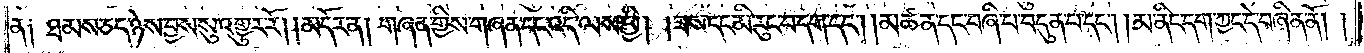ན༑ ཐམས་ཅད་ཉེས་བྱས་སུ་འགྱུར་རོ། །མདོར་ན། གཞན་གྱིས་གཞན་དང་འདི་ལས་ཕྱི། །ཟས་དང་མི་རུང་བ་དག་དང༌། །མཚན་དང་བཞི་པ་བདུན་པ་དང༌། །མ་ནིང་དག་ཀྱང་དེ་བཞིན་ནོ། །
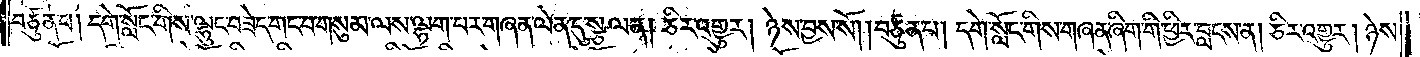བཙུན་པ། དགེ་སློང་གིས་ལྷུང་བཟེད་གང་བ་གསུམ་ལས་ལྷག་པར་གཞན་ལེན་དུ་སྩལ་ན། ཅིར་འགྱུར། ཉེས་བྱས་སོ། །བཙུན་པ། དགེ་སློང་གིས་གཞན་ཞིག་གི་ཕྱིར་བླངས་ན། ཅིར་འགྱུར། ཉེས་
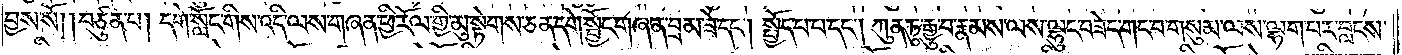བྱས་སོ། །བཙུན་པ། དགེ་སློང་གིས་འདི་ལས་གཞན་གྱི་ཕྱི་རོལ་གྱི་མུ་སྟེགས་ཅན་དགེ་སྦྱོང་གཞན་བྲམ་ཟེ་དང༌། སྤྱོད་པ་པ་དང༌། ཀུན་ཏུ་རྒྱུ་བ་རྣམས་ལས་ལྷུང་བཟེད་གང་བ་གསུམ་ལས་ལྷག་པར་བླངས་
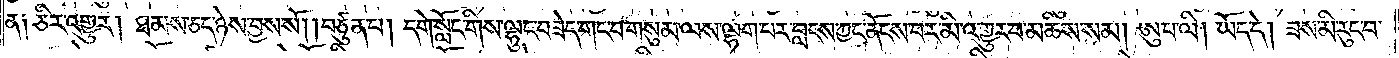ན༑ ཅིར་འགྱུར། ཐམས་ཅད་ཉེས་བྱས་སོ། །བཙུན་པ། དགེ་སློང་གིས་ལྷུང་བཟེད་གང་བ་གསུམ་ལས་ལྷག་པར་བླངས་ཀྱང་ནོངས་པར་མི་འགྱུར་བ་མཆིས་སམ། ཨུ་པ་ལི། ཡོད་དེ། ཟས་མི་རུང་བ་
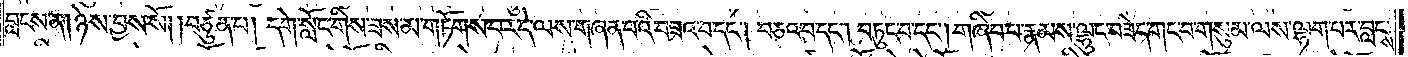བླངས་ན། ཉེས་བྱས་སོ། །བཙུན་པ། དགེ་སློང་གིས་ཟས་མ་གཏོགས་པར་དེ་ལས་གཞན་པའི་བཟའ་བ་དང༌། བཅའ་བ་དང༌། བཏུང་བ་དང༌། གཞིབ་པ་རྣམས་ལྷུང་བཟེད་གང་བ་གསུམ་ལས་ལྷག་པར་བླངས་
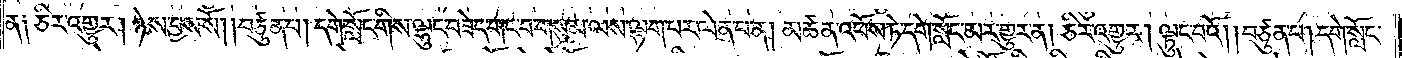ན༑ ཅིར་འགྱུར། ཉེས་བྱས་སོ། །བཙུན་པ། དགེ་སློང་གིས་ལྷུང་བཟེད་གང་བ་གསུམ་ལས་ལྷག་པར་ལེན་པ་ན། མཚན་འཕོས་ཏེ་དགེ་སློང་མར་གྱུར་ན། ཅིར་འགྱུར། ལྟུང་བའོ། །བཙུན་པ། དགེ་སློང་
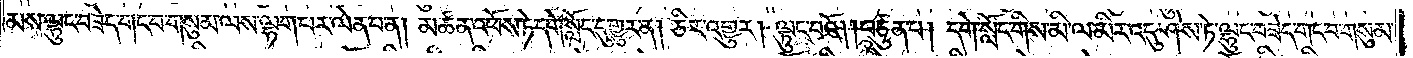མས་ལྷུང་བཟེད་གང་བ་གསུམ་ལས་ལྷག་པར་ལེན་པ་ན། མཚན་འཕོས་ཏེ་དགེ་སློང་དུ་གྱུར་ན། ཅིར་འགྱུར། ལྟུང་བའོ། །བཙུན་པ། དགེ་སློང་གིས་མི་ལ་མིར་འདུ་ཤེས་ཏེ་ལྷུང་བཟེད་གང་བ་གསུམ་
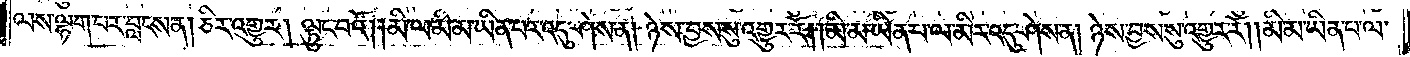ལས་ལྷག་པར་བླངས་ན། ཅིར་འགྱུར། ལྟུང་བའོ། །མི་ལ་མི་མ་ཡིན་པར་འདུ་ཤེས་ན། ཉེས་བྱས་སུ་འགྱུར་རོ། །མི་མ་ཡིན་པ་ལ་མིར་འདུ་ཤེས་ན། ཉེས་བྱས་སུ་འགྱུར་རོ། །མི་མ་ཡིན་པ་ལ་
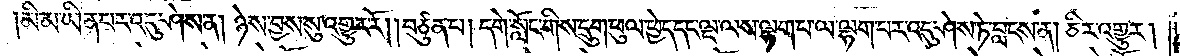མི་མ་ཡིན་པར་འདུ་ཤེས་ན། ཉེས་བྱས་སུ་འགྱུར་རོ། །བཙུན་པ། དགེ་སློང་གིས་དྲུག་ཕུལ་ཕྱེད་དང་ལྔ་ལས་ལྷག་པར་ལ་ལྷག་པར་འདུ་ཤེས་ཏེ་བླངས་ན། ཅིར་འགྱུར།
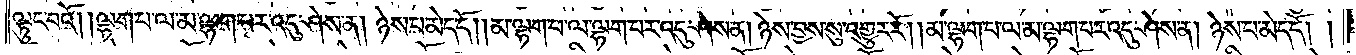ལྟུང་བའོ། །ལྷག་པ་ལ་མ་ལྷག་པར་འདུ་ཤེས་ན། ཉེས་པ་མེད་དོ། །མ་ལྷག་པ་ལ་ལྷག་པར་འདུ་ཤེས་ན། ཉེས་བྱས་སུ་འགྱུར་རོ། །མ་ལྷག་པ་ལ་མ་ལྷག་པར་འདུ་ཤེས་ན། ཉེས་པ་མེད་དོ། །
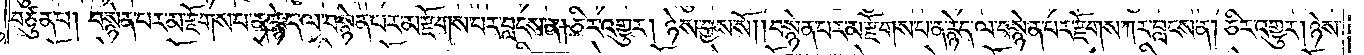བཙུན་པ། བསྙེན་པར་མ་རྫོགས་པ་ན་རྙེད་ལ་བསྙེན་པར་མ་རྫོགས་པར་བླངས་ན། ཅིར་འགྱུར། ཉེས་བྱས་སོ། །བསྙེན་པར་མ་རྫོགས་པ་ན་རྙེད་ལ་བསྙེན་པར་རྫོགས་ཀར་བླངས་ན། ཅིར་འགྱུར། ཉེས་
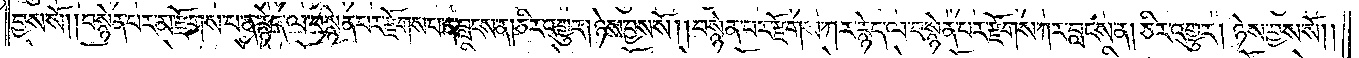བྱས་སོ། །བསྙེན་པར་མ་རྫོགས་པ་ན་རྙེད་ལ་བསྙེན་པར་རྫོགས་པ་ན་བླངས་ན། ཅིར་འགྱུར། ཉེས་བྱས་སོ། །བསྙེན་པར་རྫོགས་ཀར་རྙེད་ལ་བསྙེན་པར་རྫོགས་ཀར་བླངས་ན། ཅིར་འགྱུར། ཉེས་བྱས་སོ། །
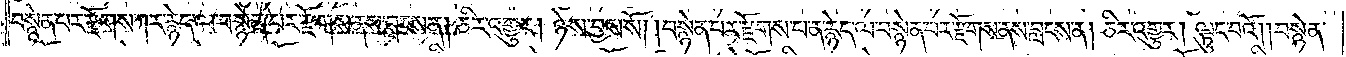བསྙེན་པར་རྫོགས་ཀར་རྙེད་ལ་བསྙེན་པར་རྫོགས་ནས་བླངས་ན། ཅིར་འགྱུར། ཉེས་བྱས་སོ། །བསྙེན་པར་རྫོགས་པ་ན་རྙེད་ལ་བསྙེན་པར་རྫོགས་ནས་བླངས་ན། ཅིར་འགྱུར། ལྟུང་བའོ། །བསྙེན་
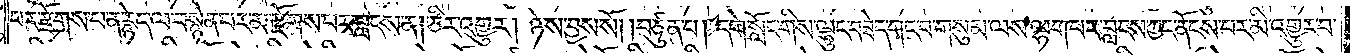པར་རྫོགས་པ་ན་རྙེད་ལ་བསྙེན་པར་མ་རྫོགས་པར་བླངས་ན། ཅིར་འགྱུར། ཉེས་བྱས་སོ། །བཙུན་པ། དགེ་སློང་གིས་ལྷུང་བཟེད་གང་བ་གསུམ་ལས་ལྷག་པར་བླངས་ཀྱང་ནོངས་པར་མི་འགྱུར་བ་
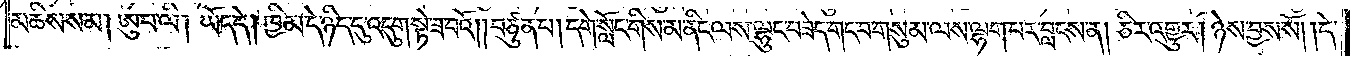མཆིས་སམ། ཨུ་པ་ལི། ཡོད་དེ། ཁྱིམ་དེ་ཉིད་དུ་འདུག་སྟེ་ཟ་བའོ། །བཙུན་པ། དགེ་སློང་གིས་མ་ནིང་ལས་ལྷུང་བཟེད་གང་བ་གསུམ་ལས་ལྷག་པར་བླངས་ན། ཅིར་འགྱུར། ཉེས་བྱས་སོ། །དེ་
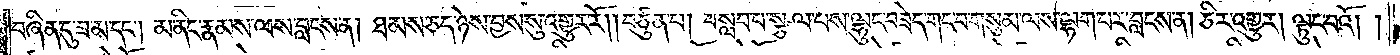བཞིན་དུ་ཟ་མ་དང༌། མ་ནིང་རྣམས་ལས་བླངས་ན། ཐམས་ཅད་ཉེས་བྱས་སུ་འགྱུར་རོ། །བཙུན་པ། བསླབ་པ་སྩལ་པས་ལྷུང་བཟེད་གང་བ་གསུམ་ལས་ལྷག་པར་བླངས་ན། ཅིར་འགྱུར། ལྟུང་བའོ། །
